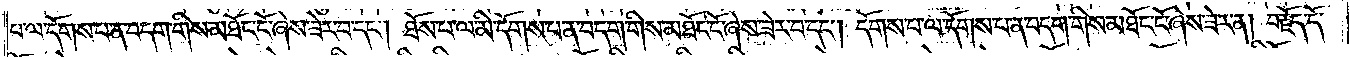པ་ལ་དོགས་པ་ན་བདག་གིས་མཐོང་ངོ་ཞེས་ཟེར་བ་དང༌། ཐོས་པ་ལ་མི་དོགས་པ་ན་བདག་གིས་མཐོང་ངོ་ཞེས་ཟེར་བ་དང༌། དོགས་པ་ལ་དོགས་པ་ན་བདག་གིས་མཐོང་ངོ་ཞེས་ཟེར་ན། བརྗོད་དོ་
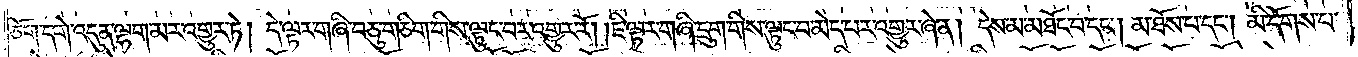ཅོག་དགེ་འདུན་ལྷག་མར་འགྱུར་ཏེ། དེ་ལྟར་གཞི་བཅུ་གཅིག་གིས་ལྟུང་བར་འགྱུར་རོ། །ཇི་ལྟར་གཞི་དྲུག་གིས་ལྟུང་བར་མེད་པར་འགྱུར་ཞེ་ན། དེས་མ་མཐོང་བ་དང༌། མ་ཐོས་པ་དང༌། མི་དོགས་པ་
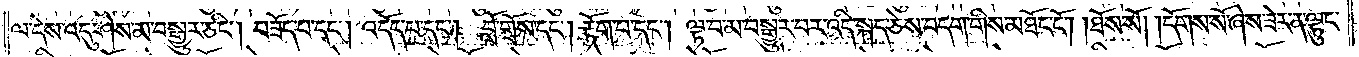ལ་དེས་འདུ་ཤེས་མ་བསྒྱུར་ཅིང༌། བཟོད་པ་དང༌། འདོད་པ་དང༌། བློ་གྲོས་དང༌། རྟོག་པ་དང༌། ལྟ་བ་མ་བསྒྱུར་བར་འདི་སྐད་ཅེས་བདག་གིས་མཐོང་ངོ༌། །ཐོས་སོ། །དོགས་སོ་ཞེས་ཟེར་ན་ལྟུང་
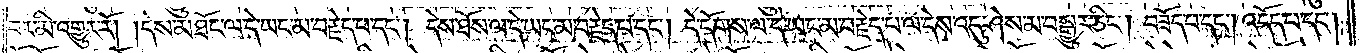བར་མི་འགྱུར་རོ། །དེས་མཐོང་ལ་དེ་ཡང་མ་བརྗེད་པ་དང༌། དེས་ཐོས་པ་དེ་ཡང་མ་བརྗེད་པ་དང༌། དེ་དོགས་ལ་དེ་ཡང་མ་བརྗེད་པ་ལ་དེས་འདུ་ཤེས་མ་བསྒྱུར་ཅིང༌། བཟོད་པ་དང༌། འདོད་པ་དང༌།
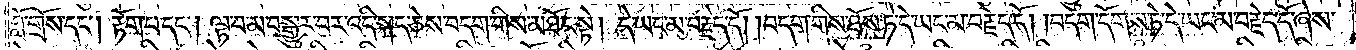བློ་གྲོས་དང༌། རྟོག་པ་དང༌། ལྟ་བ་མ་བསྒྱུར་བར་འདི་སྐད་ཅེས་བདག་གིས་མཐོང་སྟེ། དེ་ཡང་མ་བརྗེད་དོ། །བདག་གིས་ཐོས་ཏེ་དེ་ཡང་མ་བརྗེད་དོ། །བདག་དོགས་ཏེ་དེ་ཡང་མ་བརྗེད་དོ་ཞེས་
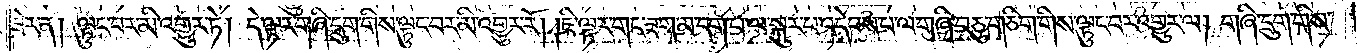ཟེར་ན། ལྟུང་བར་མི་འགྱུར་ཏེ། དེ་ལྟར་གཞི་དྲུག་གིས་ལྟུང་བར་མི་འགྱུར་རོ། །ཇི་ལྟར་གང་ཟག་མ་དག་པ་ལ་སྐུར་པ་འདེབས་པ་ལ་གཞི་བཅུ་གཅིག་གིས་ལྟུང་བར་འགྱུར་ལ། གཞི་དྲུག་གིས་
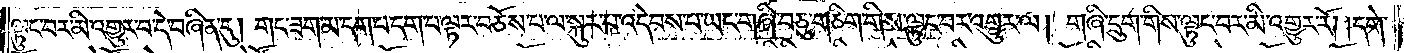ལྟུང་བར་མི་འགྱུར་བ་དེ་བཞིན་དུ། གང་ཟག་མ་དག་པ་དག་པ་ལྟར་བཅོས་པ་ལ་སྐུར་པ་འདེབས་པ་ཡང་གཞི་བཅུ་གཅིག་གིས་ལྟུང་བར་འགྱུར་ལ། གཞི་དྲུག་གིས་ལྟུང་བར་མི་འགྱུར་རོ། །དགེ་
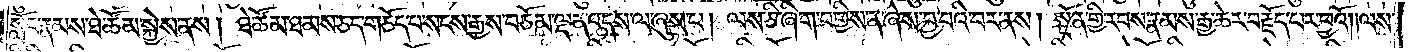སློང་རྣམས་ཐེ་ཚོམ་སྐྱེས་ནས། ཐེ་ཚོམ་ཐམས་ཅད་གཅོད་པ་སངས་རྒྱས་བཅོམ་ལྡན་འདས་ལ་ཞུས་པ། ལས་ཅི་ཞིག་བགྱིས་ན་ཞེས་བྱ་བའི་བར་ནས། སྔོན་གྱི་རབས་རྣམས་རྒྱ་ཆེར་བརྗོད་པར་བྱའོ། །ལས་
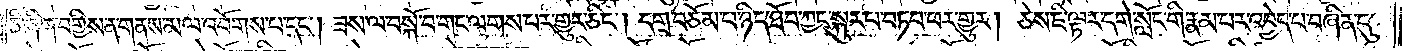ཅི་ཞིག་བགྱིས་ན་གནས་མ་ལ་འབོགས་པ་དང༌། ཟས་ལ་བསྐོ་བ་གང་ལགས་པར་གྱུར་ཅིང༌། དགྲ་བཅོམ་པ་ཉིད་ཐོབ་ཀྱང་སྐུར་པ་བཏབ་པར་གྱུར། ཅེས་ཇི་ལྟར་དགེ་སློང་གི་རྣམ་པར་འབྱེད་པ་བཞིན་དུ་
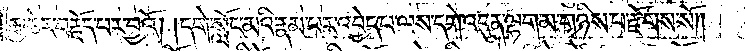རྒྱ་ཆེར་བརྗོད་པར་བྱའོ། །དགེ་སློང་མའི་རྣམ་པར་འབྱེད་པ་ལས་དགེ་འདུན་ལྷག་མ་གཉིས་པ་རྫོགས་སོ༎
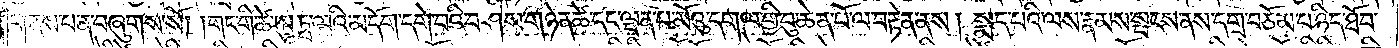གནས་པ་ན་བཞུགས་སོ། །གང་གི་ཚེ་ཨུཏྤ་ལའི་མདོག་དགེ་བའི་བཤེས་གཉེན་ཚེ་དང་ལྡན་པ་མོའུ་དགལ་གྱི་བུ་ཆེན་པོ་ལ་བརྟེན་ནས། སྨད་པའི་ལས་རྣམས་སྤངས་ནས་དགྲ་བཅོམ་པ་ཉིད་ཐོབ་
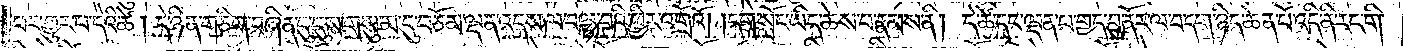པར་གྱུར་པ་དེའི་ཚེ། དེ་ཉིན་གཅིག་བཞིན་དུ་དུས་གསུམ་དུ་བཅོམ་ལྡན་འདས་ལ་བལྟ་བའི་ཕྱིར་འགྲོའོ། །དགེ་སློང་ཡིད་ཆེས་པ་རྣམས་ནི། དེ་ཚེ་དང་ལྡན་པ་གྱད་བུ་ནོར་ལ་བདག་ཉིད་ཆེན་པོ་འདི་ནི་རང་གི་
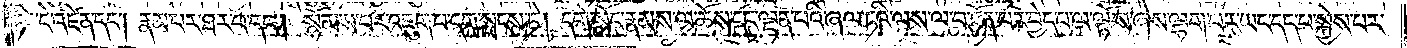ཏིང་ངེ་འཛིན་དང༌། རྣམ་པར་ཐར་པ་དང༌། སྙོམས་པར་འཇུག་པ་དག་སྤངས་ཏེ། དགེ་སློང་རྣམས་ལ་ཆོས་དང་ལྡན་པའི་ཞལ་ཏའི་ལས་ལ་བརྩོན་པར་བྱེད་པ་ལ་ལྟོས་ཞེས་ལྷག་པར་ཡང་དད་པ་སྐྱེས་པར་
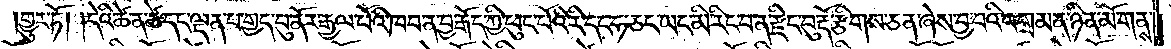གྱུར་ཏོ། །དེའི་ཚེ་ན་ཚེ་དང་ལྡན་པ་གྱད་བུ་ནོར་རྒྱལ་པོའི་ཁབ་ན་བྱ་རྒོད་ཀྱི་ཕུང་པོའི་རི་དང་ཧ་ཅང་ཡང་མི་རིང་བ་ན་རྫིང་བུ་རྡོ་རྩིགས་ཅན་ཞེས་བྱ་བའི་འགྲམ་ན་ཉིན་མོ་གནས་
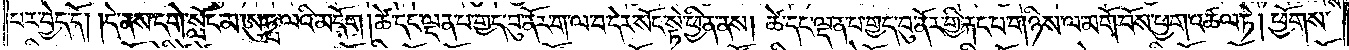པར་བྱེད་དོ། །དེ་ནས་དགེ་སློང་མ་ཨུཏྤ་ལའི་མདོག །ཚེ་དང་ལྡན་པ་གྱད་བུ་ནོར་ག་ལ་བ་དེར་སོང་སྟེ་ཕྱིན་ནས། ཚེ་དང་ལྡན་པ་གྱད་བུ་ནོར་གྱི་རྐང་པ་གཉིས་ལ་མགོ་བོས་ཕྱག་འཚལ་ཏེ། ཕྱོགས་
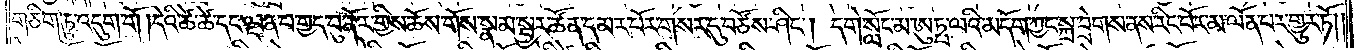གཅིག་ཏུ་འདུག་གོ །དེའི་ཚེ་ཚེ་དང་ལྡན་པ་གྱད་བུ་ནོར་གྱིས་ཆོས་གོས་སྣམ་སྦྱར་ཚོན་དམར་པོར་གསར་དུ་བཙོས་ཤིང༌། དགེ་སློང་མ་ཨུཏྤ་ལའི་མདོག་ཀྱང་སྐྲ་བྲེགས་ནས་རིང་པོར་མ་ལོན་པར་གྱུར་ཏོ༎
